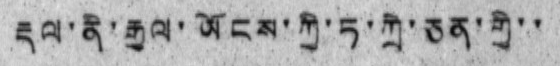རྡལ་ནི་རྒྱལ་ཡོངས་ཀྱི་ཏ་ཀྲེ་ཅན་གྱི་་
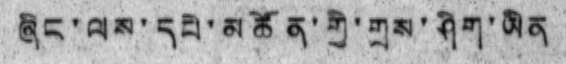ཞིང་ལས་དཔེ་མཚོན་གྱི་གྲས་ཤིག་ཡིན
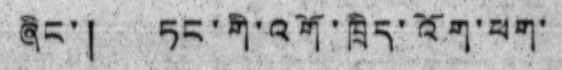ཞིང་། ཏང་གི་འགོ་ཁྲིད་འོག་ཕག་
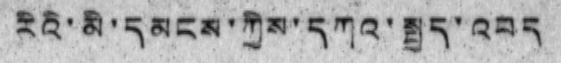རིའི་མི་དམངས་ཀྱིས་དཀའ་སྤྱད་འབད་
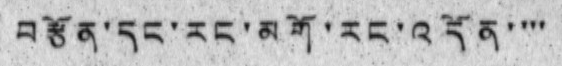བརྩོན་དང་རང་མགོ་རང་འདོན་་་་
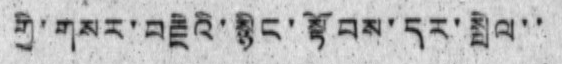གྱི་གསར་བརྗེའི་སྙིང་སྟོབས་དར་སྤེལ་་
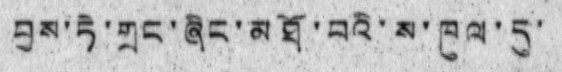བྱས་ཏེ་གྲང་ཞིང་མཐོ་བའི་ས་ཁུལ་དུ་
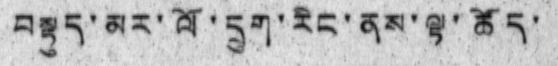བསྟུད་མར་ལོ་དྲུག་རིང་ནས་ལྟ་ཚོད་
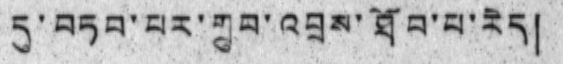དུ་བཏབ་པར་གྲུབ་འབྲས་ཐོབ་པ་རེད།
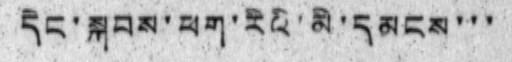དེང་སྐབས་ཕག་རིའི་མི་དམངས་་་
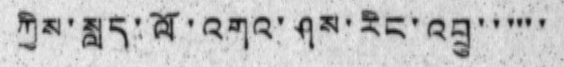ཀྱིས་སླད་ལོ་འགའ་ཤས་རིང་འབྲུ་་་་་་
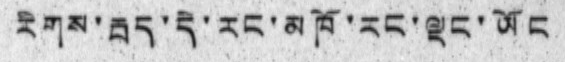རིགས་རྦད་དེ་རང་མཁོ་རང་ལྡང་ཡོང
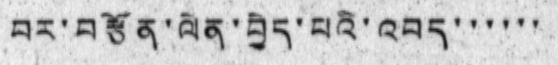བར་བརྩོན་ལེན་བྱེད་པའི་འབད་་་་་་
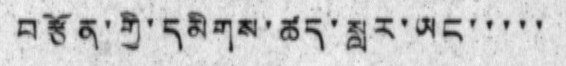བརྩོན་གྱི་དམིགས་ཚད་སླར་ཡང་་་་་
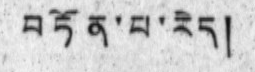བཏོན་པ་རེད།
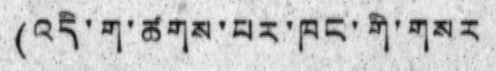(འདི་ག་ཚགས་པར་ཁང་གི་གསར
